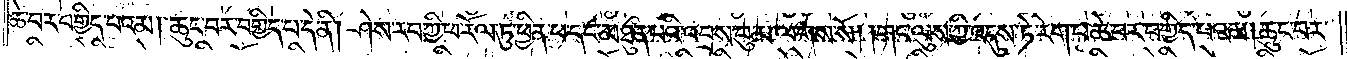ཆེ་བར་བགྱིད་པའམ། ཆུང་བར་བགྱིད་པ་དེ་ནི། ཤེས་རབ་ཀྱི་ཕ་རོལ་ཏུ་ཕྱིན་པ་དང་མཐུན་པའི་འབྲས་བུ་མ་ལགས་སོ། །གང་ལུས་ཀྱི་འདུས་ཏེ་རེག་པ་ཆེ་བར་བགྱིད་པའམ། ཆུང་བར་
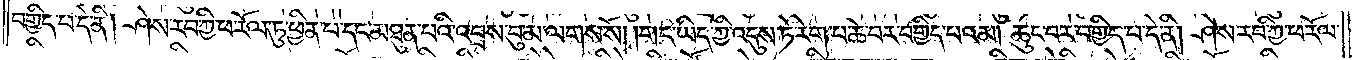བགྱིད་པ་དེ་ནི། ཤེས་རབ་ཀྱི་ཕ་རོལ་ཏུ་ཕྱིན་པ་དང་མཐུན་པའི་འབྲས་བུ་མ་ལགས་སོ། །གང་ཡིད་ཀྱི་འདུས་ཏེ་རེག་པ་ཆེ་བར་བགྱིད་པའམ། ཆུང་བར་བགྱིད་པ་དེ་ནི། ཤེས་རབ་ཀྱི་ཕ་རོལ་
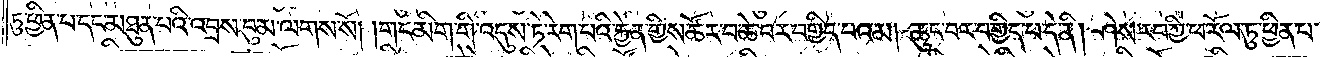ཏུ་ཕྱིན་པ་དང་མཐུན་པའི་འབྲས་བུ་མ་ལགས་སོ། །གང་མིག་གི་འདུས་ཏེ་རེག་པའི་རྐྱེན་གྱིས་ཚོར་བ་ཆེ་བར་བགྱིད་པའམ། ཆུང་བར་བགྱིད་པ་དེ་ནི། ཤེས་རབ་ཀྱི་ཕ་རོལ་ཏུ་ཕྱིན་པ་
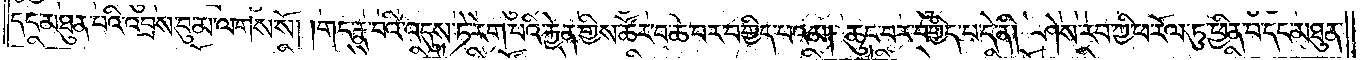དང་མཐུན་པའི་འབྲས་བུ་མ་ལགས་སོ། །གང་རྣ་བའི་འདུས་ཏེ་རེག་པའི་རྐྱེན་གྱིས་ཚོར་བ་ཆེ་བར་བགྱིད་པའམ། ཆུང་བར་བགྱིད་པ་དེ་ནི། ཤེས་རབ་ཀྱི་ཕ་རོལ་ཏུ་ཕྱིན་པ་དང་མཐུན་
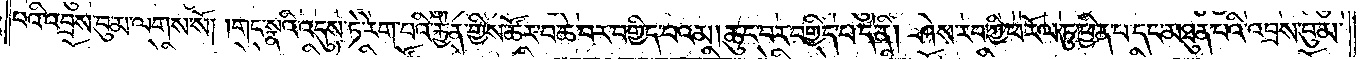པའི་འབྲས་བུ་མ་ལགས་སོ། །གང་སྣའི་འདུས་ཏེ་རེག་པའི་རྐྱེན་གྱིས་ཚོར་བ་ཆེ་བར་བགྱིད་པའམ། ཆུང་བར་བགྱིད་པ་དེ་ནི། ཤེས་རབ་ཀྱི་ཕ་རོལ་ཏུ་ཕྱིན་པ་དང་མཐུན་པའི་འབྲས་བུ་མ་
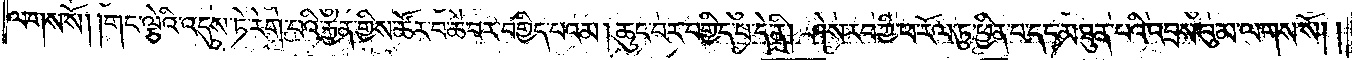ལགས་སོ། །གང་ལྕེའི་འདུས་ཏེ་རེག་པའི་རྐྱེན་གྱིས་ཚོར་བ་ཆེ་བར་བགྱིད་པའམ། ཆུང་བར་བགྱིད་པ་དེ་ནི། ཤེས་རབ་ཀྱི་ཕ་རོལ་ཏུ་ཕྱིན་པ་དང་མཐུན་པའི་འབྲས་བུ་མ་ལགས་སོ། །
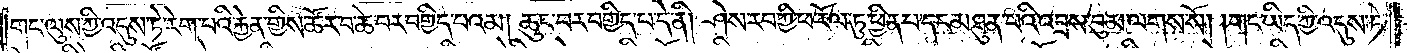གང་ལུས་ཀྱི་འདུས་ཏེ་རེག་པའི་རྐྱེན་གྱིས་ཚོར་བ་ཆེ་བར་བགྱིད་པའམ། ཆུང་བར་བགྱིད་པ་དེ་ནི། ཤེས་རབ་ཀྱི་ཕ་རོལ་ཏུ་ཕྱིན་པ་དང་མཐུན་པའི་འབྲས་བུ་མ་ལགས་སོ། །གང་ཡིད་ཀྱི་འདུས་ཏེ་
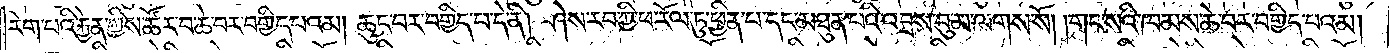རེག་པའི་རྐྱེན་གྱིས་ཚོར་བ་ཆེ་བར་བགྱིད་པའམ། ཆུང་བར་བགྱིད་པ་དེ་ནི། ཤེས་རབ་ཀྱི་ཕ་རོལ་ཏུ་ཕྱིན་པ་དང་མཐུན་པའི་འབྲས་བུ་མ་ལགས་སོ། །གང་སའི་ཁམས་ཆེ་བར་བགྱིད་པའམ།
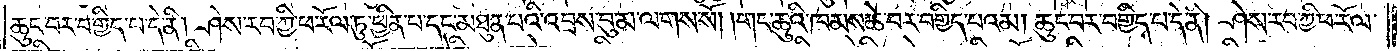ཆུང་བར་བགྱིད་པ་དེ་ནི། ཤེས་རབ་ཀྱི་ཕ་རོལ་ཏུ་ཕྱིན་པ་དང་མཐུན་པའི་འབྲས་བུ་མ་ལགས་སོ། །གང་ཆུའི་ཁམས་ཆེ་བར་བགྱིད་པའམ། ཆུང་བར་བགྱིད་པ་དེ་ནི། ཤེས་རབ་ཀྱི་ཕ་རོལ་
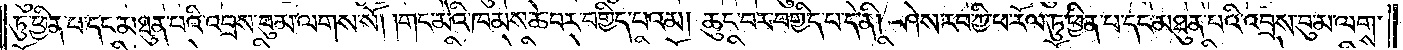ཏུ་ཕྱིན་པ་དང་མཐུན་པའི་འབྲས་བུ་མ་ལགས་སོ། །གང་མེའི་ཁམས་ཆེ་བར་བགྱིད་པའམ། ཆུང་བར་བགྱིད་པ་དེ་ནི། ཤེས་རབ་ཀྱི་ཕ་རོལ་ཏུ་ཕྱིན་པ་དང་མཐུན་པའི་འབྲས་བུ་མ་ལགས་
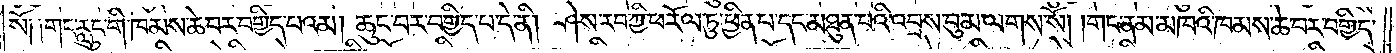སོ༑ ༑གང་རླུང་གི་ཁམས་ཆེ་བར་བགྱིད་པའམ། ཆུང་བར་བགྱིད་པ་དེ་ནི། ཤེས་རབ་ཀྱི་ཕ་རོལ་ཏུ་ཕྱིན་པ་དང་མཐུན་པའི་འབྲས་བུ་མ་ལགས་སོ། །གང་ནམ་མཁའི་ཁམས་ཆེ་བར་བགྱིད་
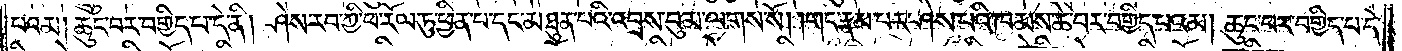པའམ། ཆུང་བར་བགྱིད་པ་དེ་ནི། ཤེས་རབ་ཀྱི་ཕ་རོལ་ཏུ་ཕྱིན་པ་དང་མཐུན་པའི་འབྲས་བུ་མ་ལགས་སོ། །གང་རྣམ་པར་ཤེས་པའི་ཁམས་ཆེ་བར་བགྱིད་པའམ། ཆུང་བར་བགྱིད་པ་དེ་
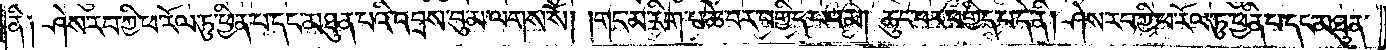ནི༑ ཤེས་རབ་ཀྱི་ཕ་རོལ་ཏུ་ཕྱིན་པ་དང་མཐུན་པའི་འབྲས་བུ་མ་ལགས་སོ། །གང་མ་རིག་པ་ཆེ་བར་བགྱིད་པའམ། ཆུང་བར་བགྱིད་པ་དེ་ནི། ཤེས་རབ་ཀྱི་ཕ་རོལ་ཏུ་ཕྱིན་པ་དང་མཐུན་
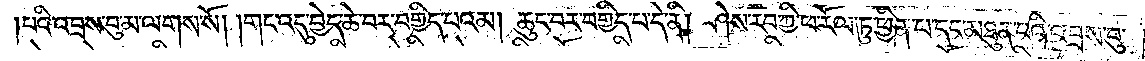པའི་འབྲས་བུ་མ་ལགས་སོ། །གང་འདུ་བྱེད་ཆེ་བར་བགྱིད་པའམ། ཆུང་བར་བགྱིད་པ་དེ་ནི། ཤེས་རབ་ཀྱི་ཕ་རོལ་ཏུ་ཕྱིན་པ་དང་མཐུན་པའི་འབྲས་བུ་
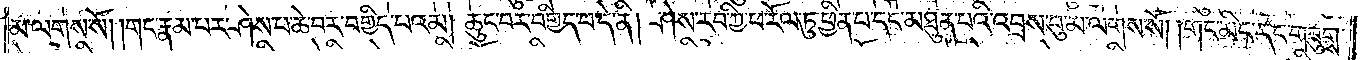མ་ལགས་སོ། །གང་རྣམ་པར་ཤེས་པ་ཆེ་བར་བགྱིད་པའམ། ཆུང་བར་བགྱིད་པ་དེ་ནི། ཤེས་རབ་ཀྱི་ཕ་རོལ་ཏུ་ཕྱིན་པ་དང་མཐུན་པའི་འབྲས་བུ་མ་ལགས་སོ། །གང་མིང་དང་གཟུགས་
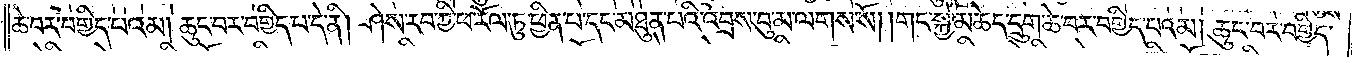ཆེ་བར་བགྱིད་པའམ། ཆུང་བར་བགྱིད་པ་དེ་ནི། ཤེས་རབ་ཀྱི་ཕ་རོལ་ཏུ་ཕྱིན་པ་དང་མཐུན་པའི་འབྲས་བུ་མ་ལགས་སོ། །གང་སྐྱེ་མཆེད་དྲུག་ཆེ་བར་བགྱིད་པའམ། ཆུང་བར་བགྱིད་
